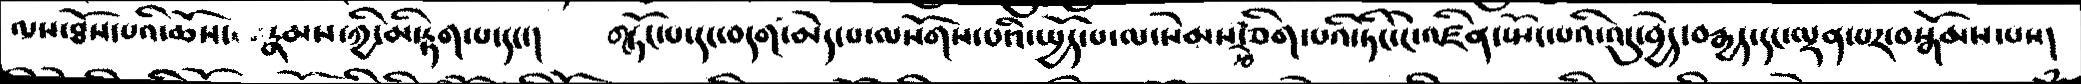ལས་ཐོས་པའི་ཆོས་ རྣམས་ཀྱི་མི་རྟག་པ་དང་།   གཏོང་པ་དང་བདག་མེད་པ་ལ་སོགས་པའི་སྤྱོད་པ་ལ་སེམས་རྩེ་ཅིག་པའི་ཏིང་ངེ་འཛིན་སྤོང་པའི་འདུ་བྱེད་བརྒྱད་དང་ལྡན་པར་བསྒོམས་པས།
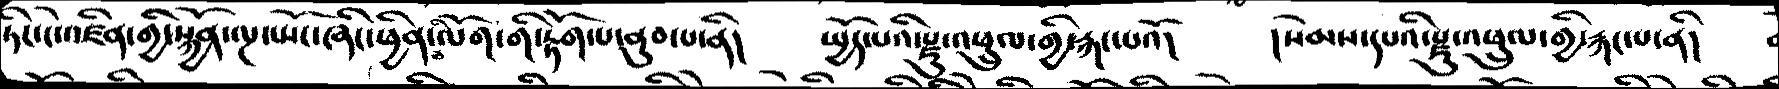ཏིང་ངེ་འཛིན་གྱི་སྐྱོན་ལྔ་སྤོང་ཞིང་ཕྱིན་ཅི་ལོག་གི་རྟོག་པ་ནུབ་པ་ནི།  སྤྱོད་པའི་རྫུ་འཕྲུལ་གྱི་རྐང་པའོ།   །སེམས་དཔའི་རྫུ་འཕྲུལ་གྱི་རྐང་པ་ནི།
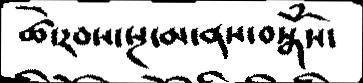ཚེ་རབས་སྔ་མ་ནས་བསྒོཾས་
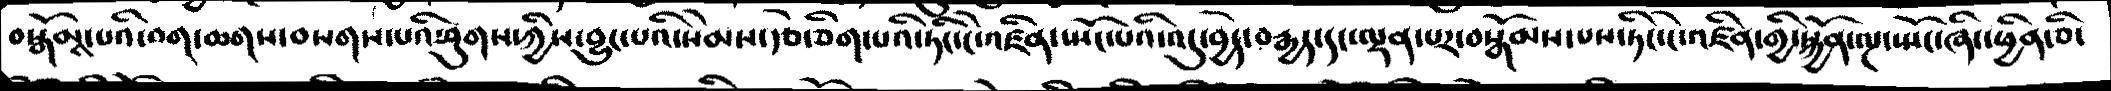བསྒོམས་པའི་བག་ཆགས་བསགས་པའི་ཤུགས་ཀྱིས་བྱུང་པའི་སེམས་རྩེ་ཅིག་པའི་ཏིང་ངེ་འཛིན་སྤོང་པའི་འདུ་བྱེད་བརྒྱད་དང་ལྡན་པར་བསྒོམས་པས་ཏིང་ངེ་འཛིན་གྱི་སྐྱོན་ལྔ་སྤོང་ཞིང་ཕྱིན་ཅི་
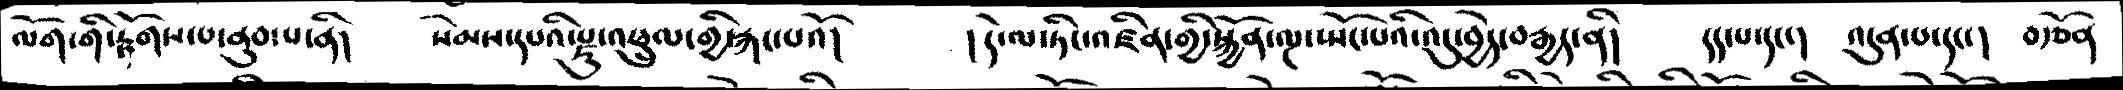ལོག་གི་རྟོགས་པ་ནུབ་པ་ནི།   སེམས་དཔའི་རྫུ་འཕྲུལ་གྱི་རྐང་པའོ།   །དེ་ལ་ཏིང་འཛིན་གྱི་སྐྱོན་ལྔ་སྤོང་པའི་འདུ་བྱེད་བརྒྱད་ནི།   དད་པ་དང་།   འདུན་པ་དང་།   བརྩོན
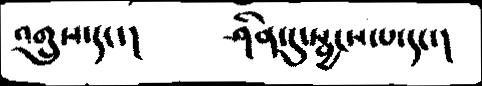འགྲུས་དང་།   ཤིན་དུ་སྦྱངས་པ་དང་།
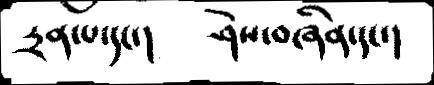དྲན་པ་དང་།   ཤེས་བཞིན་དང་།
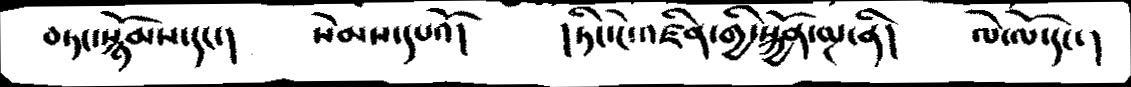བཏང་སྙོམས་དང་།  སེམས་དཔའོ།   །ཏིང་ངེ་འཛིན་གྱི་སྐྱོན་ལྔ་ནི།   ལེ་ལོ་དང་།
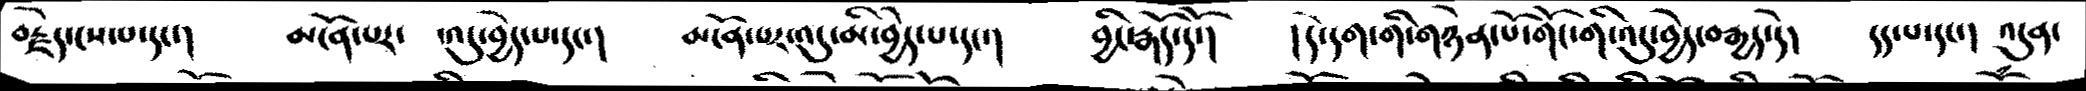བརྗེད་ངས་པ་དང་།   མངོན་པར་ འདུ་བྱེད་པ་དང་།   མངོན་པར་འདུ་མི་བྱེད་པ་དང་།   བྱིང་རྒོད་དོ་།   །དེ་དག་གི་གཉེན་པོ་གོང་གི་འདུ་བྱེད་བརྒྱད་དེ།   དད་པ་དང་།   འདུན་
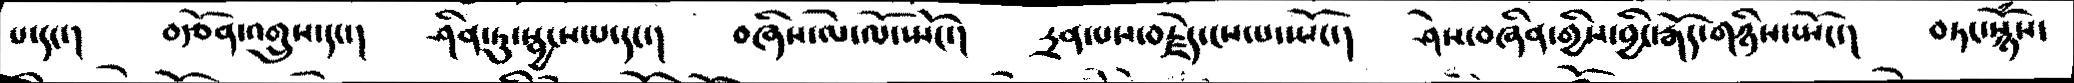པ་དང་།  བརྩོན་འགྲུས་དང་།   ཤིན་ཏུ་སྦྱངས་པ་དང་།   བཞིས་ལེ་ལོ་སྤོང་།   དྲན་པས་བརྗེད་ངས་པ་སྤོང་།   ཤེས་བཞིན་གྱིས་བྱིང་རྒོད་གཉིས་སྤོང་།   བཏང་སྙོཾས་
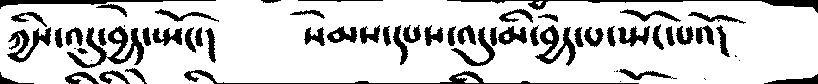ཀྱིས་འདུ་བྱེད་སྤོང་།   སེམས་དཔས་འདུ་མི་བྱེད་པ་སྤོང་པའོ།
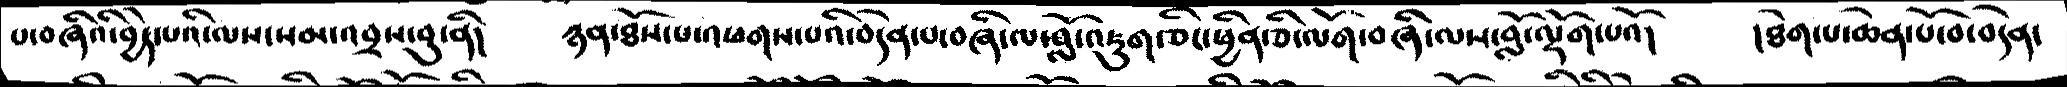པ་བཞིའི་བྱེད་པའི་ལས་སམ་འབྲས་བུ་ནི།   ཉན་ཐོས་པ་འཕགས་པའི་བདེན་པ་བཞི་ལ་བློ་འཇུག་ཅིང་ཕྱིན་ཅི་ལོག་བཞི་ལས་བློ་ལྡོག་པའོ།   །ཐེག་པ་ཆེན་པོ་བ་བདེན་
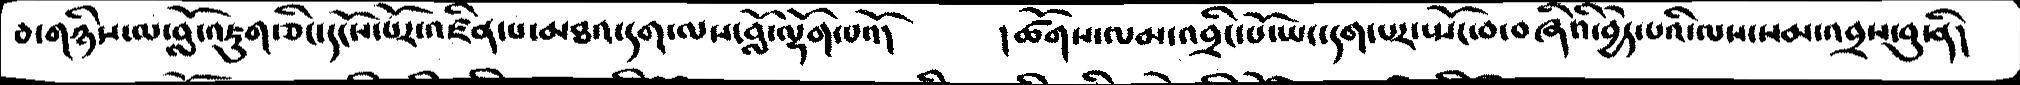པ་གཉིས་ལ་བློ་འཇུག་ཅིང་དངོས་པར་འཛིན་པ་མཐའ་དག་ལས་བློ་ལྡོག་པའོ།   །ཚོགས་ལམ་འབྲིང་པོ་ཡང་དག་པར་སྤོང་བ་བཞིའི་བྱེད་པའི་ལས་སམ་འབྲས་བུ་ནི།
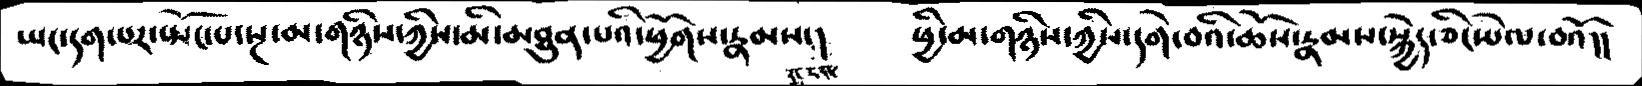ཡང་དག་པར་སྤོང་པ་སྔ་མ་གཉིས་ཀྱིས་མི་མཐུན་པའི་ཕྱོག་རྣམས་སངས་།   ཕྱི་མ་གཉིས་ཀྱིས་དགེ་བའི་ཆོས་རྣམས་སྐྱེད་ཅིང་སྤེལ་བའོ།།
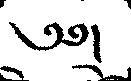༄༅།
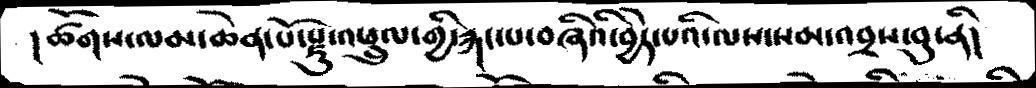།ཚོགས་ལམ་ཆེན་པོ་རྫུ་འཕྲུལ་གྱི་རྐང་པ་བཞིའི་བྱེད་པའི་ལས་སམ་འབྲས་བུ་ནི།
